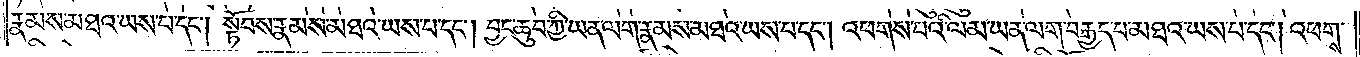རྣམས་མཐའ་ཡས་པ་དང༌། སྟོབས་རྣམས་མཐའ་ཡས་པ་དང༌། བྱང་ཆུབ་ཀྱི་ཡན་ལག་རྣམས་མཐའ་ཡས་པ་དང༌། འཕགས་པའི་ལམ་ཡན་ལག་བརྒྱད་པ་མཐའ་ཡས་པ་དང༌། འཕགས་
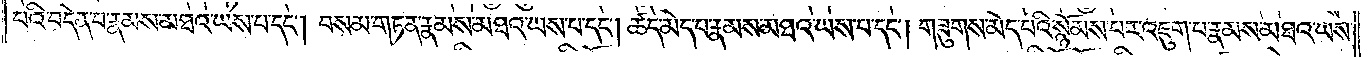པའི་བདེན་པ་རྣམས་མཐའ་ཡས་པ་དང༌། བསམ་གཏན་རྣམས་མཐའ་ཡས་པ་དང༌། ཚད་མེད་པ་རྣམས་མཐའ་ཡས་པ་དང༌། གཟུགས་མེད་པའི་སྙོམས་པར་འཇུག་པ་རྣམས་མཐའ་ཡས་
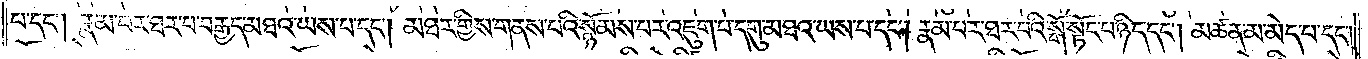པ་དང༌། རྣམ་པར་ཐར་པ་བརྒྱད་མཐའ་ཡས་པ་དང༌། མཐར་གྱིས་གནས་པའི་སྙོམས་པར་འཇུག་པ་དགུ་མཐའ་ཡས་པ་དང༌། རྣམ་པར་ཐར་པའི་སྒོ་སྟོང་པ་ཉིད་དང༌། མཚན་མ་མེད་པ་དང༌།
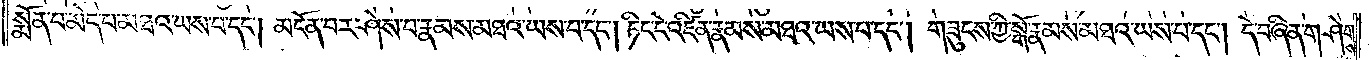སྨོན་པ་མེད་པ་མཐའ་ཡས་པ་དང༌། མངོན་པར་ཤེས་པ་རྣམས་མཐའ་ཡས་པ་དང༌། ཏིང་ངེ་འཛིན་རྣམས་མཐའ་ཡས་པ་དང༌། གཟུངས་ཀྱི་སྒོ་རྣམས་མཐའ་ཡས་པ་དང༌། དེ་བཞིན་གཤེགས་
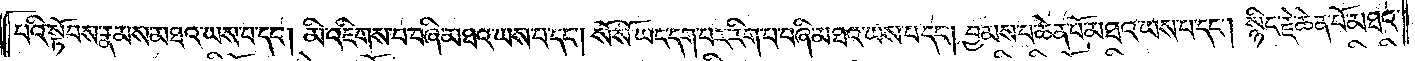པའི་སྟོབས་རྣམས་མཐའ་ཡས་པ་དང༌། མི་འཇིགས་པ་བཞི་མཐའ་ཡས་པ་དང༌། སོ་སོ་ཡང་དག་པར་རིག་པ་བཞི་མཐའ་ཡས་པ་དང༌། བྱམས་པ་ཆེན་པོ་མཐའ་ཡས་པ་དང༌། སྙིང་རྗེ་ཆེན་པོ་མཐའ་
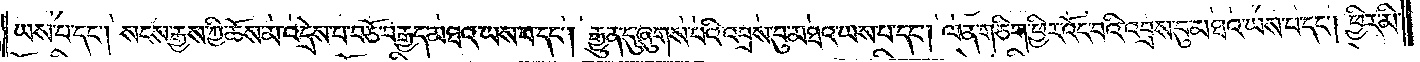ཡས་པ་དང༌། སངས་རྒྱས་ཀྱི་ཆོས་མ་འདྲེས་པ་བཅོ་བརྒྱད་མཐའ་ཡས་པ་དང༌། རྒྱུན་དུ་ཞུགས་པའི་འབྲས་བུ་མཐའ་ཡས་པ་དང༌། ལན་ཅིག་ཕྱིར་འོང་བའི་འབྲས་བུ་མཐའ་ཡས་པ་དང༌། ཕྱིར་མི་
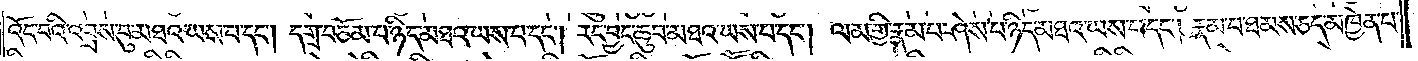འོང་བའི་འབྲས་བུ་མཐའ་ཡས་པ་དང༌། དགྲ་བཅོམ་པ་ཉིད་མཐའ་ཡས་པ་དང༌། རང་བྱང་ཆུབ་མཐའ་ཡས་པ་དང༌། ལམ་གྱི་རྣམ་པ་ཤེས་པ་ཉིད་མཐའ་ཡས་པ་དང༌། རྣམ་པ་ཐམས་ཅད་མཁྱེན་པ་
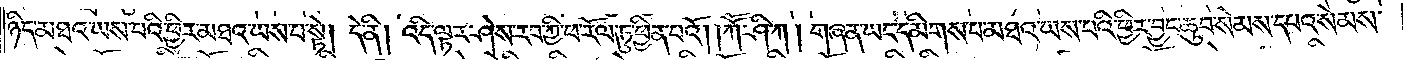ཉིད་མཐའ་ཡས་པའི་ཕྱིར་མཐའ་ཡས་པ་སྟེ། དེ་ནི། འདི་ལྟར་ཤེས་རབ་ཀྱི་ཕ་རོལ་ཏུ་ཕྱིན་པའོ། །ཀཽ་ཤི་ཀ། གཞན་ཡང་དམིགས་པ་མཐའ་ཡས་པའི་ཕྱིར། བྱང་ཆུབ་སེམས་དཔའ་སེམས་
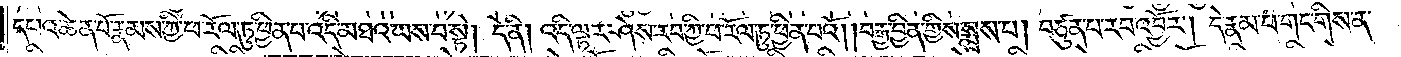དཔའ་ཆེན་པོ་རྣམས་ཀྱི་ཕ་རོལ་ཏུ་ཕྱིན་པ་འདི་མཐའ་ཡས་པ་སྟེ། དེ་ནི། འདི་ལྟར་ཤེས་རབ་ཀྱི་ཕ་རོལ་ཏུ་ཕྱིན་པའོ། །བརྒྱ་བྱིན་གྱིས་སྨྲས་པ། བཙུན་པ་རབ་འབྱོར། དེ་རྣམ་པ་གང་གིས་ན་
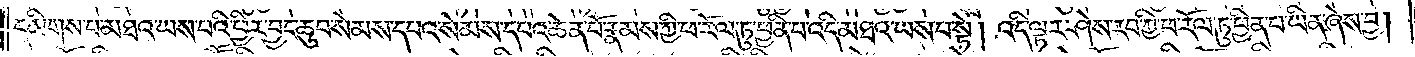དམིགས་པ་མཐའ་ཡས་པའི་ཕྱིར་བྱང་ཆུབ་སེམས་དཔའ་སེམས་དཔའ་ཆེན་པོ་རྣམས་ཀྱི་ཕ་རོལ་ཏུ་ཕྱིན་པ་འདི་མཐའ་ཡས་པ་སྟེ། འདི་ལྟར་ཤེས་རབ་ཀྱི་ཕ་རོལ་ཏུ་ཕྱིན་པ་ཡིན་ཞེ་བྱ།
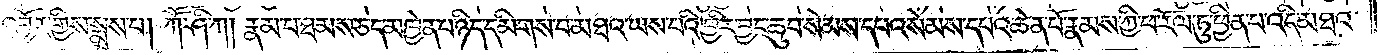རབ་འབྱོར་གྱིས་སྨྲས་པ། ཀཽ་ཤི་ཀ། རྣམ་པ་ཐམས་ཅད་མཁྱེན་པ་ཉིད་དམིགས་པ་མཐའ་ཡས་པའི་ཕྱིར་བྱང་ཆུབ་སེམས་དཔའ་སེམས་དཔའ་ཆེན་པོ་རྣམས་ཀྱི་ཕ་རོལ་ཏུ་ཕྱིན་པ་འདི་མཐའ་
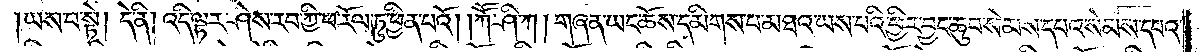ཡས་པ་སྟེ། དེ་ནི། འདི་ལྟར་ཤེས་རབ་ཀྱི་ཕ་རོལ་ཏུ་ཕྱིན་པའོ། །ཀཽ་ཤི་ཀ། གཞན་ཡང་ཆོས་དམིགས་པ་མཐའ་ཡས་པའི་ཕྱིར་བྱང་ཆུབ་སེམས་དཔའ་སེམས་དཔའ་
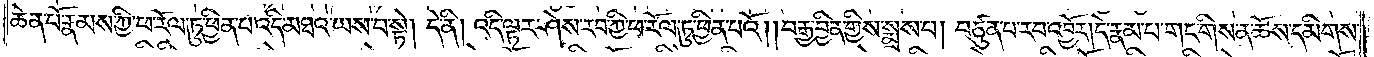ཆེན་པོ་རྣམས་ཀྱི་ཕ་རོལ་ཏུ་ཕྱིན་པ་འདི་མཐའ་ཡས་པ་སྟེ། དེ་ནི། འདི་ལྟར་ཤེས་རབ་ཀྱི་ཕ་རོལ་ཏུ་ཕྱིན་པའོ། །བརྒྱ་བྱིན་གྱིས་སྨྲས་པ། བཙུན་པ་རབ་འབྱོར། དེ་རྣམ་པ་གང་གིས་ན་ཆོས་དམིགས་
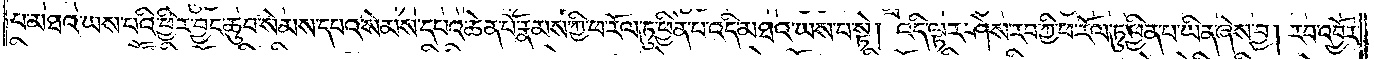པ་མཐའ་ཡས་པའི་ཕྱིར་བྱང་ཆུབ་སེམས་དཔའ་སེམས་དཔའ་ཆེན་པོ་རྣམས་ཀྱི་ཕ་རོལ་ཏུ་ཕྱིན་པ་འདི་མཐའ་ཡས་པ་སྟེ། འདི་ལྟར་ཤེས་རབ་ཀྱི་ཕ་རོལ་ཏུ་ཕྱིན་པ་ཡིན་ཞེས་བྱ། རབ་འབྱོར་
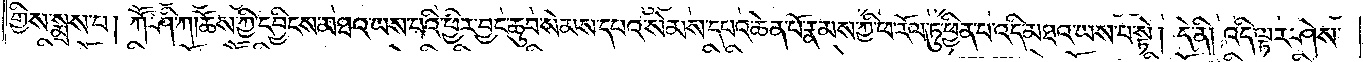གྱིས་སྨྲས་པ། ཀཽ་ཤི་ཀ། ཆོས་ཀྱི་དབྱིངས་མཐའ་ཡས་པའི་ཕྱིར་བྱང་ཆུབ་སེམས་དཔའ་སེམས་དཔའ་ཆེན་པོ་རྣམས་ཀྱི་ཕ་རོལ་ཏུ་ཕྱིན་པ་འདི་མཐའ་ཡས་པ་སྟེ། དེ་ནི། འདི་ལྟར་ཤེས་
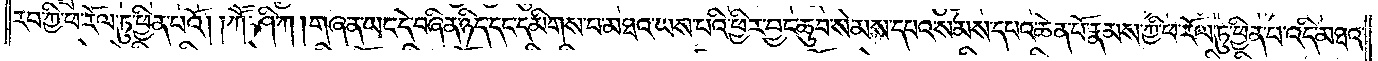རབ་ཀྱི་ཕ་རོལ་ཏུ་ཕྱིན་པའོ། །ཀཽ་ཤི་ཀ། གཞན་ཡང་དེ་བཞིན་ཉིད་དང་དམིགས་པ་མཐའ་ཡས་པའི་ཕྱིར་བྱང་ཆུབ་སེམས་དཔའ་སེམས་དཔའ་ཆེན་པོ་རྣམས་ཀྱི་ཕ་རོལ་ཏུ་ཕྱིན་པ་འདི་མཐའ་
